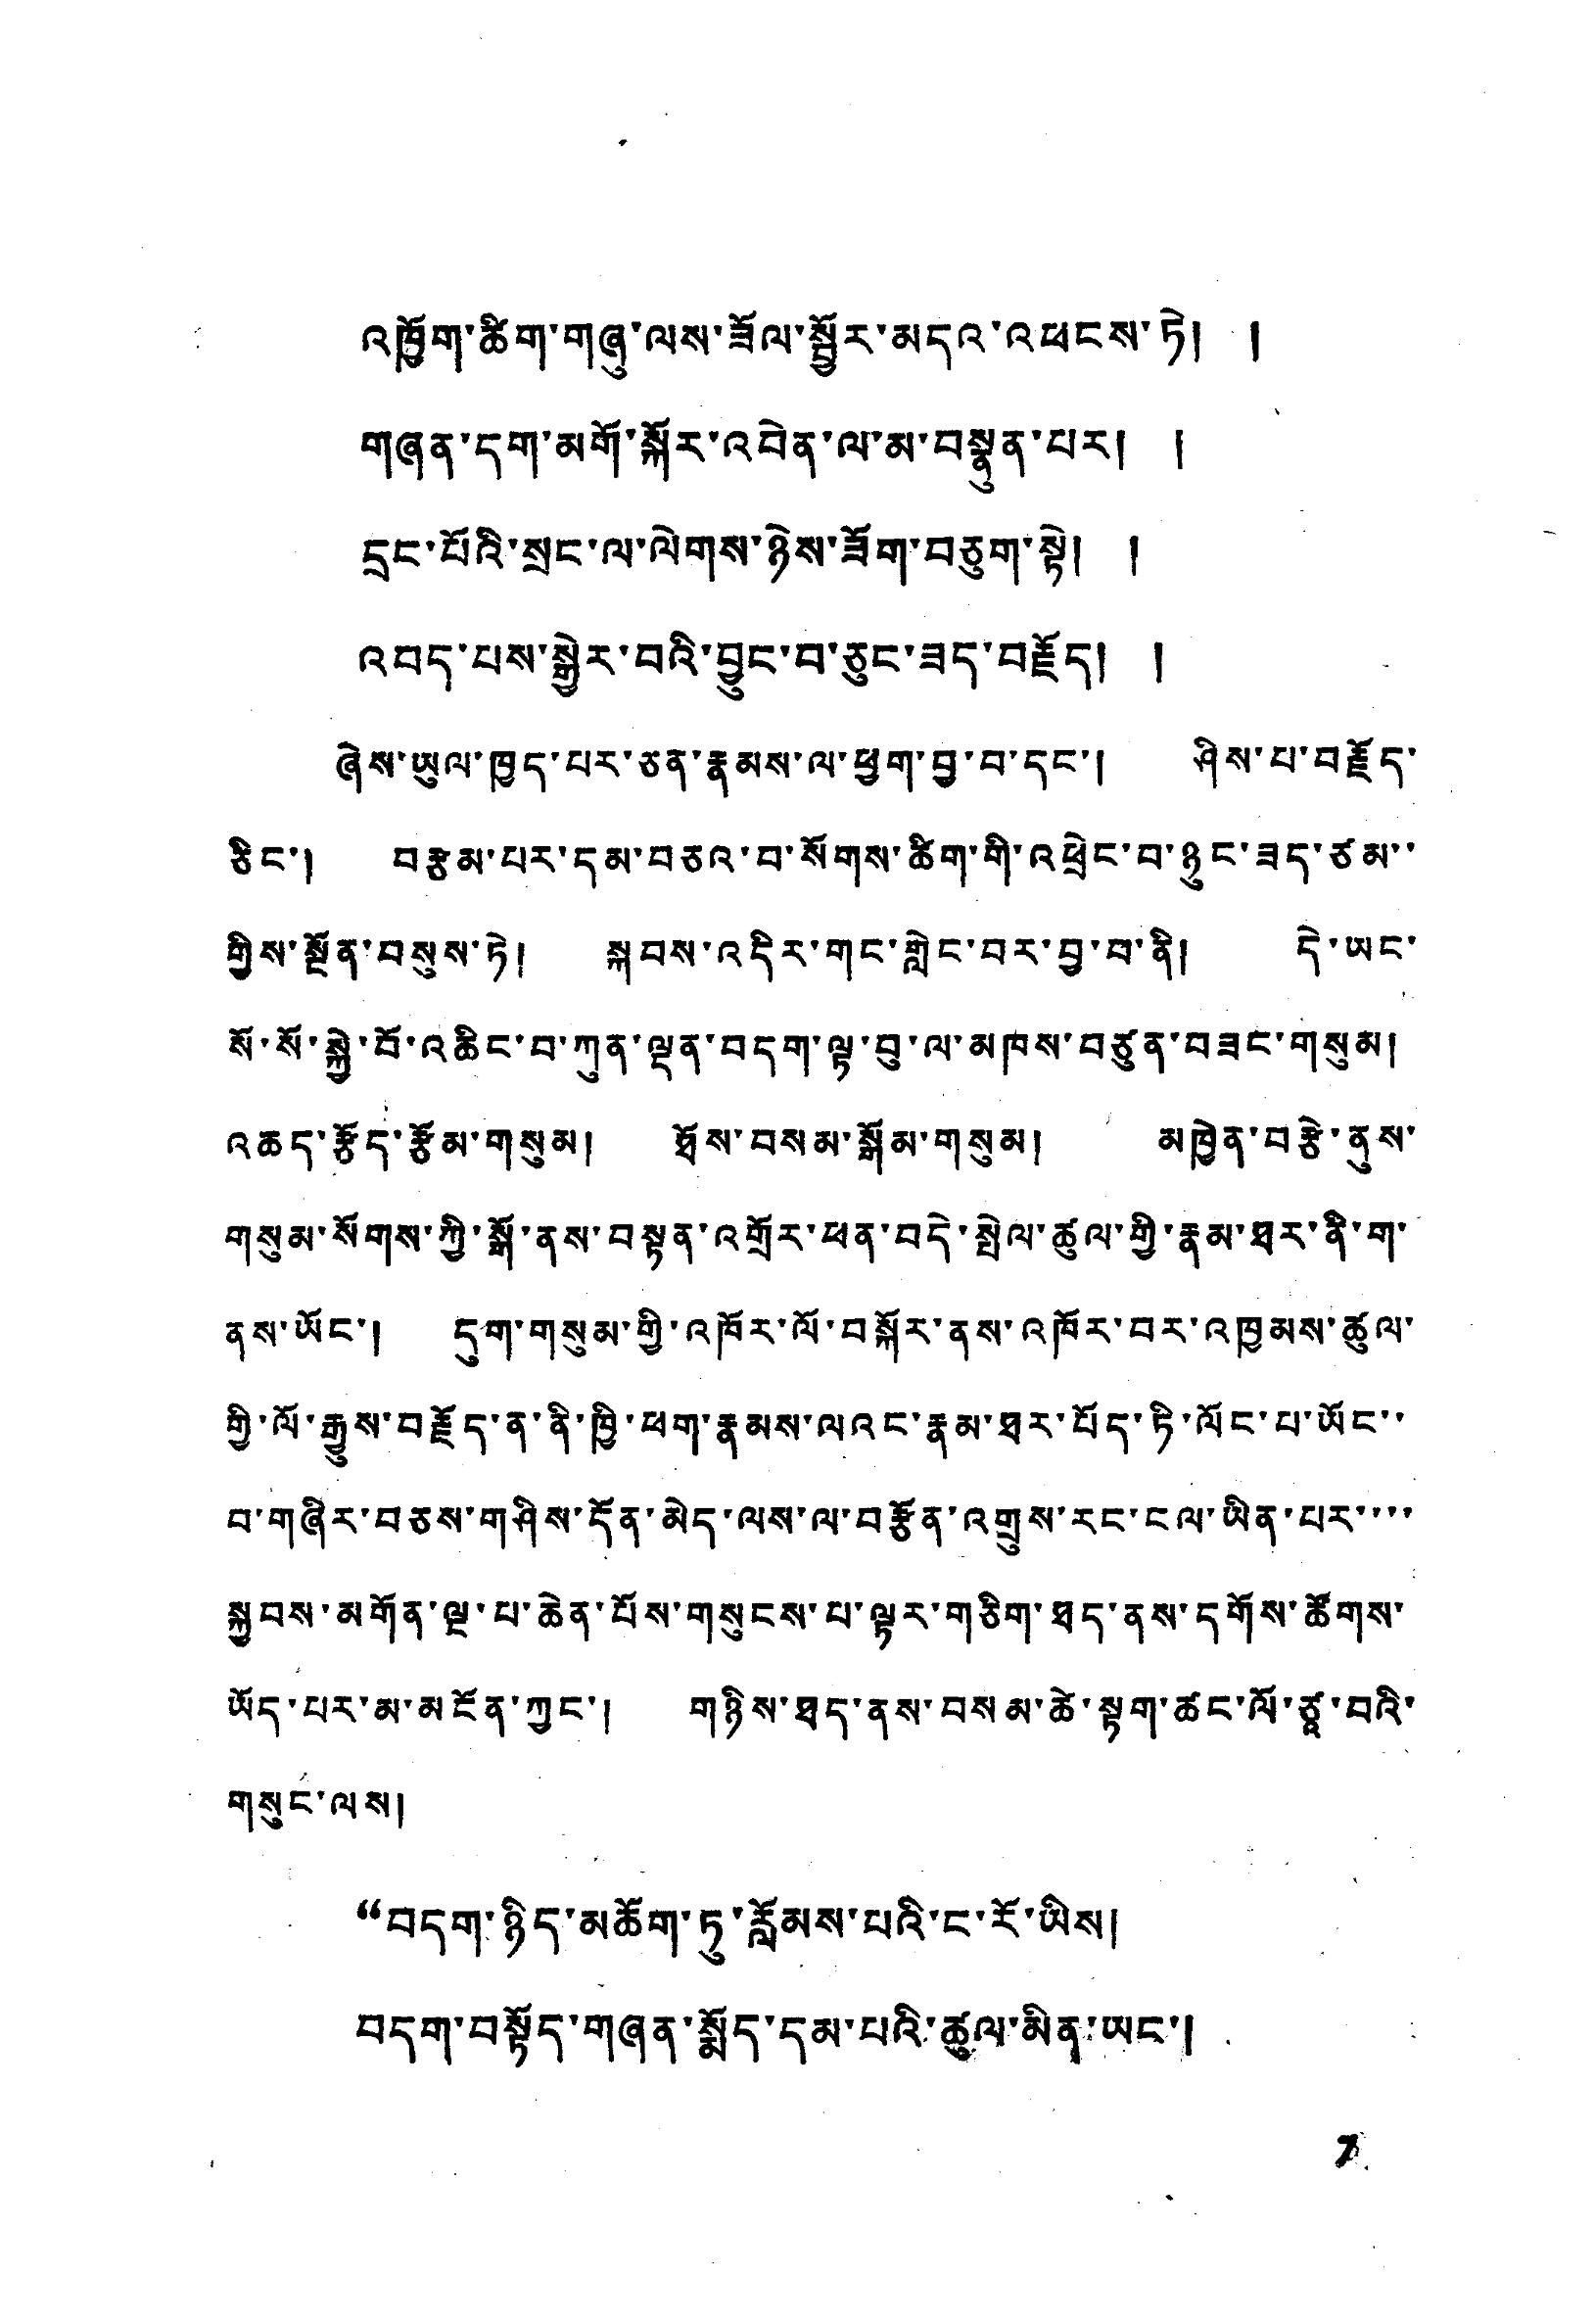འཁྱོག་ཚིག་གཞུ་ལས་ཟོལ་སྦྱོར་མདའ་འཕངས་ཏེ། །
གཞན་དག་མགོ་སྐོར་འབེན་ལ་མ་བསྣུན་པར། །
དྲང་པོའི་སྲང་ལ་ལེགས་ཉེས་ཟོག་བཅུག་སྟེ། །
འབད་པས་སྒྱེར་བའི་བྱུང་བ་ཅུང་ཟད་བརྗོད། །
ཞེས་ཡུལ་ཁྱད་པར་ཅན་རྣམས་ལ་ཕྱག་བྱ་བ་དང་། ཤིས་པ་བརྗོད་
ཅིང་། བརྩམ་པར་དམ་བཅའ་བ་སོགས་ཚིག་གི་འཕྲེང་བ་ཉུང་ཟད་ཙམ་་
གྱིས་སྔོན་བསུས་ཏེ། སྐབས་འདིར་གང་གླེང་བར་བྱ་བ་ནི། དེ་ཡང་
སོ་སོ་སྐྱེ་བོ་འཆིང་བ་ཀུན་ལྡན་བདག་ལྟ་བུ་ལ་མཁས་བཙུན་བཟང་གསུམ།
འཆད་རྩོད་རྩོམ་གསུམ། ཐོས་བསམ་སྒོམ་གསུམ། མཁྱེན་བརྩེ་ནུས་
གསུམ་སོགས་ཀྱི་སྒོ་ནས་བསྟན་འགྲོར་ཕན་བདེ་སྤེལ་ཚུལ་གྱི་རྣམ་ཐར་ནི་ག་
ནས་ཡོང་། དུག་གསུམ་གྱི་འཁོར་ལོ་བསྐོར་ནས་འཁོར་བར་འཁྱམས་ཚུལ་
གྱི་ལོ་རྒྱུས་བརྗོད་ན་ནི་ཁྱི་ཕག་རྣམས་ལའང་རྣམ་ཐར་པོད་ཏི་ལོང་པ་ཡོང་་
བ་གཞིར་བཅས་གཤིས་དོན་མེད་ལས་ལ་བརྩོན་འགྲུས་རང་ངལ་ཡིན་པར་་་་
སྐྱབས་མགོན་ལྔ་པ་ཆེན་པོས་གསུངས་པ་ལྟར་གཅིག་ཐད་ནས་དགོས་ཚོགས་
ཡོད་པར་མ་མངོན་ཀྱང་། གཉིས་ཐད་ནས་བསམ་ཚེ་སྟག་ཚང་ལོ་ཙཱ་བའི་
གསུང་ལས།
བདག་ཉིད་མཆོག་ཏུ་རློམས་པའི་ང་རོ་ཡིས།
བདག་བསྟོད་གཞན་སྨོད་དམ་པའི་ཚུལ་མིན་ཡང་།
7
